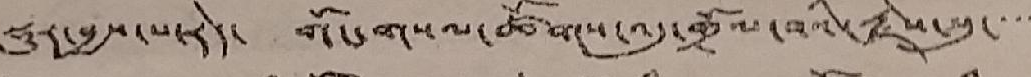སྡུར་བྱས་པ་རེད་ གོང་གསལ་ཚོགས་འདུ་གྲོལ་བའི་རྗེས་སུ་་་་
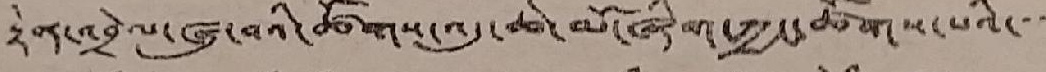རྟེན་འབྲེལ་ཞུ་བའི་ཚོགས་འདུ་ཆེ་མོ་ཞིག་ཀྱང་ཚོགས་པའི་་་་
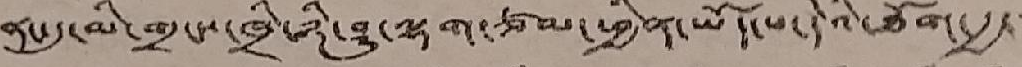ནང་དུ་མི་གྲངས་ཁྲི་ཉི་ཤུ་ལྷག་ཙམ་ཕྱིན་ཡོད་པ་དེའི་ཐོག་རྒྱ་་་
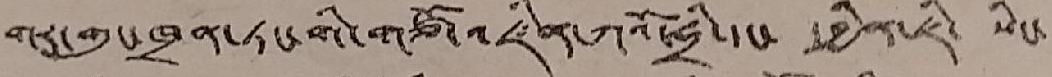གར་གུང་ཁྲན་ཏང་གི་གཙོ་འཛིན་ཀའོ་ཧྲི་དང་ དབྱིན་ཇི་ སེང་
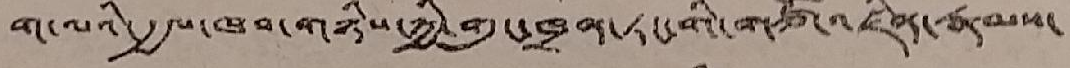ག་ལའི་རྒྱལ་ཁབ་གཉིས་ཀྱི་གུང་ཁྲན་ཏང་གི་གཙོ་འཛིན་རྣམས་
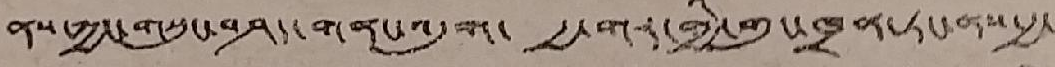ནས་ཀྱང་གསུང་བཤད་གནང་འདུག་ རྒྱ་གར་གྱི་གུང་ཁྲན་ཏང་ནས་རྒྱ་
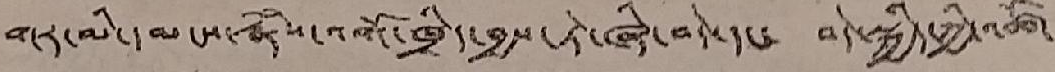གར་མི་དམངས་རྣཾས་འགོ་ཁྲིད་བྱས་ཏེ་ཞི་བདེ་དང་ བདེ་སྐྱོད་ཀྱི་འཚོ་
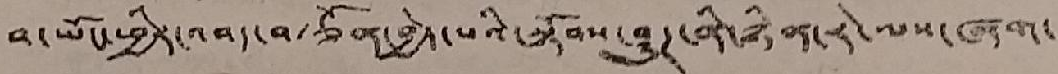བ་ཡོང་ཕྱིར་འབད་བརྩོན་བྱེད་པའི་སྟོབས་ཤུཊ་ནི་ཉི་རེ་ལས་ཞག་
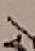རེ
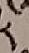ར
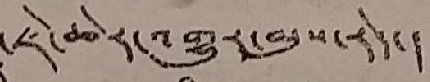་ཇེ་ཆེར་འགྱུར་མུས་རེད་།
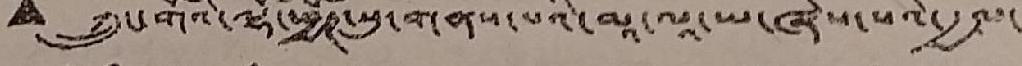• ཀྲུང་གོའི་ལྷོ་ཕྱོཏ་སུ་གནས་པའི་མཱ་ལཱ་ཡ་ཞེས་པའི་རྒྱལ་
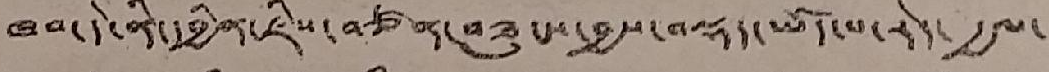ཁབ་དེ་ནི་དབྱིན་ཇིས་བཙན་བཟུང་བྱས་བསྡད་ཡོད་པ་རེད་ རྒྱལ་
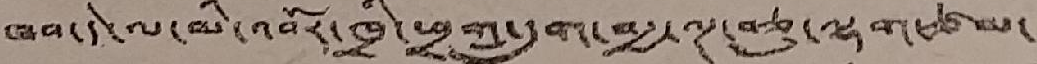ཁབ་དེ་ལ་མི་འབོར་ཁྲི་ཕྲག་དྲུག་བརྒྱ་ལྔ་བཅུ་ལྷག་ཙམ་
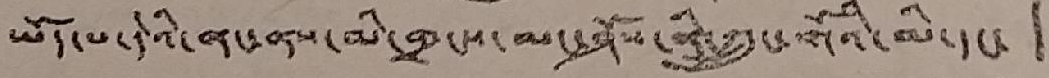ཡོད་པ་དེའི་ནང་ནས་མི་གྲངས་མང་ཤོས་ནི་ཀྲུང་གོའི་མི་དང་
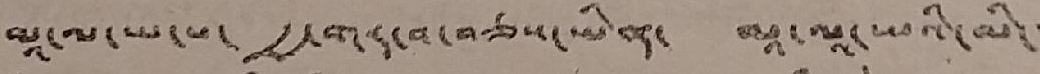མཱ་ལ་ཡ་པ་ རྒྱ་གར་བ་བཅས་ཡིན་ མཱ་ལཱ་ཡའི་མི་་་
